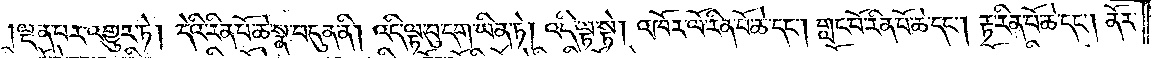།ལྡན་པར་འགྱུར་ཏེ། དེའི་རིན་པོ་ཆེ་སྣ་བདུན་ནི། འདི་ལྟ་བུ་དག་ཡིན་ཏེ། འདི་ལྟ་སྟེ། འཁོར་ལོ་རིན་པོ་ཆེ་དང༌། གླང་པོ་རིན་པོ་ཆེ་དང༌། རྟ་རིན་པོ་ཆེ་དང༌། ནོར་
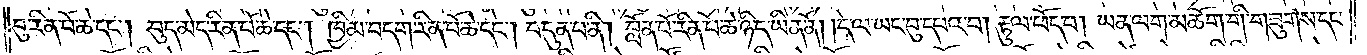བུ་རིན་པོ་ཆེ་དང༌། བུད་མེད་རིན་པོ་ཆེ་དང༌། ཁྱིམ་བདག་རིན་པོ་ཆེ་དང༌། བདུན་པ་ནི། བློན་པོ་རིན་པོ་ཆེ་ཉིད་ཡིན་ནོ། །དེ་ལ་ཡང་བུ་དཔའ་བ། རྟུལ་ཕོད་པ། ཡན་ལག་མཆོག་གི་གཟུགས་དང་
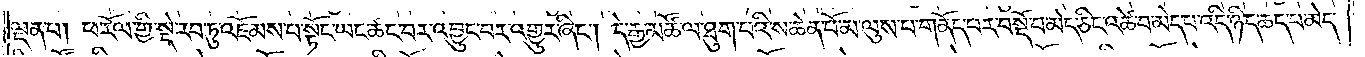ལྡན་པ། ཕ་རོལ་གྱི་སྡེ་རབ་ཏུ་འཇོམས་པ་སྟོང་ཡང་ཚང་བར་འབྱུང་བར་འགྱུར་ཞིང༌། དེ་རྒྱ་མཚོ་ལ་ཐུག་པའི་ས་ཆེན་པོ་མ་ལུས་པ་གནོད་པར་བསྡོ་བ་མེད་ཅིང་འཚེ་བ་མེད་པ་འདི་ཉིད་ཆད་པ་མེད་
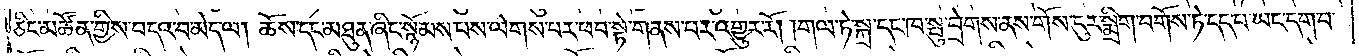ཅིང་མཚོན་གྱིས་བདའ་བ་མེད་ལ། ཆོས་དང་མཐུན་ཞིང་སྙོམས་པས་ལེགས་པར་ཕབ་སྟེ་གནས་པར་འགྱུར་རོ། །གལ་ཏེ་སྐྲ་དང་ཁ་སྤུ་བྲེགས་ནས་གོས་ངུར་སྨྲིག་བགོས་ཏེ་དད་པ་ཡང་དག་པ་
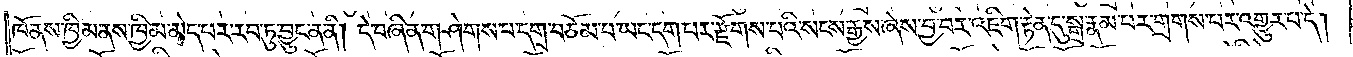ཁོ་ནས་ཁྱིམ་ནས་ཁྱིམ་མེད་པར་རབ་ཏུ་བྱུང་ན་ནི། དེ་བཞིན་གཤེགས་པ་དགྲ་བཅོམ་པ་ཡང་དག་པར་རྫོགས་པའི་སངས་རྒྱས་ཞེས་བྱ་བར་འཇིག་རྟེན་དུ་སྒྲ་རྣམ་པར་གྲགས་པར་འགྱུར་པ་དེ།
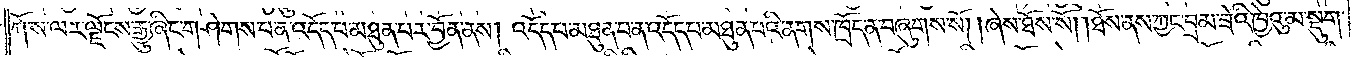ཀོ་ས་ལར་ལྗོངས་རྒྱུ་ཞིང་གཤེགས་པ་ན་འདོད་པ་མཐུན་པར་བྱོན་ནས། འདོད་པ་མཐུན་པ་ན་འདོད་པ་མཐུན་པའི་ནགས་ཁྲོད་ན་བཞུགས་སོ། །ཞེས་ཐོས་སོ། །ཐོས་ནས་ཀྱང་བྲམ་ཟེའི་ཁྱེའུ་མ་སྡུག་
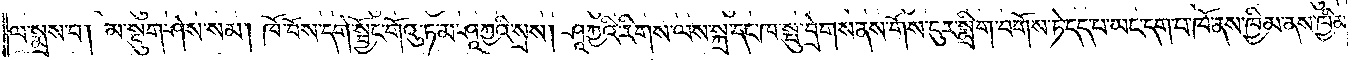ལ་སྨྲས་པ། མ་སྡུག་ཤེས་སམ། ཁོ་བོས་དགེ་སྦྱོང་གོའུ་ཏ་མ་ཤཱཀྱའི་སྲས། ཤཱཀྱ་རིགས་ལས་སྒྲ་དང་ཁ་སྤུ་བྲེགས་ནས་གོས་ངུར་སྨྲིག་བགོས་ཏེ་དད་པ་ཡང་དག་པ་ཁོ་ནས་ཁྱིམ་ནས་ཁྱིམ་
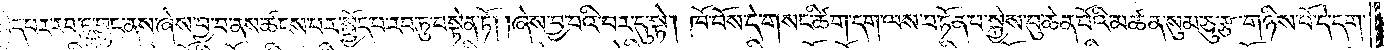མེད་པར་རབ་ཏུ་བྱུང་ནས་ཞེས་བྱ་བ་ནས་ཚངས་པར་སྤྱོད་པ་རབ་ཏུ་བསྟེན་ཏོ། །ཞེས་བྱ་བའི་བར་དུ་སྟེ། ཁོ་བོས་དེ་གསང་ཚིག་དག་ལས་བཏོན་པ་སྐྱེས་བུ་ཆེན་པོའི་མཚན་སུམ་ཅུ་རྩ་གཉིས་པོ་དེ་དག་
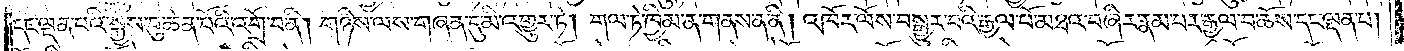དང་ལྡན་པའི་སྐྱེས་བུ་ཆེན་པོའི་འགྲོ་བ་ནི། གཉིས་ལས་གཞན་དུ་མི་འགྱུར་ཏེ། གལ་ཏེ་ཁྱིམ་ན་གནས་ན་ནི། འཁོར་ལོས་བསྒྱུར་བའི་རྒྱལ་པོ་མཐའ་བཞིར་རྣམ་པར་རྒྱལ་བ་ཆོས་དང་ལྡན་པ།
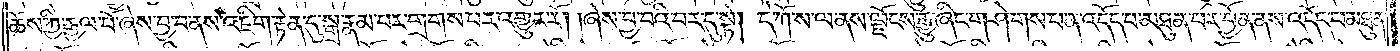ཆོས་ཀྱི་རྒྱལ་པོ་ཞེས་བྱ་བ་ནས་འཇིག་རྟེན་དུ་སྒྲ་རྣམ་པར་གྲགས་པར་འགྱུར་རོ། །ཞེས་བྱ་བའི་བར་དུ་སྟེ། དེ་ཀོ་ས་ལ་ནས་ལྗོངས་རྒྱུ་ཞིང་གཤེགས་པ་ན་འདོད་པ་མཐུན་པར་བྱོན་ནས་འདོད་པ་མཐུན་
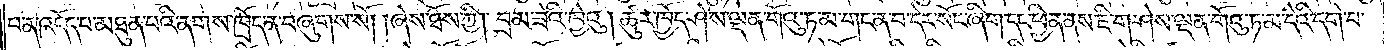པ་ན་འདོད་པ་མཐུན་པའི་ནགས་ཁྲོད་ན་བཞུགས་སོ། །ཞེས་ཐོས་ཀྱི། བྲམ་ཟེའི་ཁྱེའུ། ཚུར་ཁྱོད་ཤེས་ལྡན་གོའུ་ཏ་མ་གང་ན་བ་དེར་སོང་ཞིག་དང་ཕྱིན་ནས་ཇི་ག་ཤེས་ལྡན་གོའུ་ཏ་མ་དེའི་དགེ་བ་
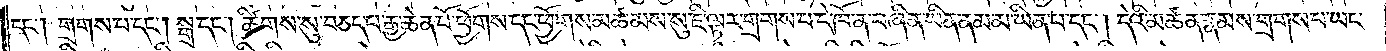དང༌། གྲགས་པ་དང༌། སྒྲ་དང༌། ཚིགས་སུ་བཅད་པ་རྒྱ་ཆེན་པོ་ཕྱོགས་དང་ཕྱོགས་མཚམས་སུ་ཇི་ལྟར་གྲགས་པ་དེ་ཁོ་ན་བཞིན་ཡིན་ནམ་མ་ཡིན་པ་དང༌། དེའི་མཚན་རྣམས་གྲགས་པ་ཡང་
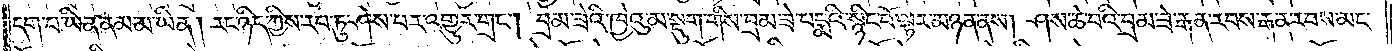དག་པ་ཡིན་ནམ་མ་ཡིན། རང་ཉིད་ཀྱིས་རབ་ཏུ་ཤེས་པར་འགྱུར་གྲང༌། བྲམ་ཟེའི་ཁྱེའུ་མ་སྡུག་གིས་བྲམ་ཟེ་པདྨའི་སྙིང་པོ་ལྟར་མཉན་ནས། ཤས་ཆེ་བའི་བྲམ་ཟེ་རྒན་རབས་རྒན་རབས་མང་
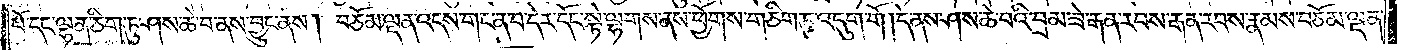པོ་དང་ལྷན་ཅིག་ཏུ་ཤས་ཆེ་བ་ནས་བྱུང་ནས། བཅོམ་ལྡན་འདས་གང་བ་ན་དེར་དོང་སྟེ་ལྷགས་ནས་ཕྱོགས་གཅིག་ཏུ་འདུག་གོ །དེ་ནས་ཤས་ཆེ་བའི་བྲམ་ཟེ་རྒན་རབས་རྒན་རབས་རྣམས་བཅོམ་ལྡན་
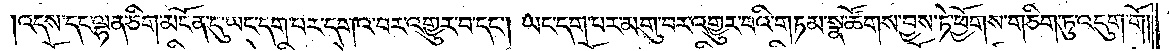འདས་དང་ལྷན་ཅིག་མངོན་དུ་ཡང་དག་པར་དགའ་བར་འགྱུར་བ་དང༌། ཡང་དག་པར་མགུ་བར་འགྱུར་བའི་གཏམ་སྣ་ཚོགས་བྱས་ཏེ་ཕྱོགས་གཅིག་ཏུ་འདུག་གོ།
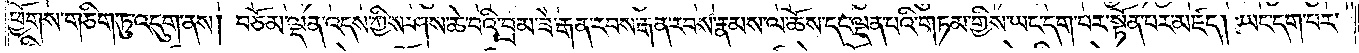ཕྱོགས་གཅིག་ཏུ་འདུག་ནས། བཅོམ་ལྡན་འདས་ཀྱིས་ཤས་ཆེ་བའི་བྲམ་ཟེ་རྒན་རབས་རྒན་རབས་རྣམས་ལ་ཆོས་དང་ལྡན་པའི་གཏམ་གྱིས་ཡང་དག་པར་སྟོན་པར་མཛད། ཡང་དག་པར་
